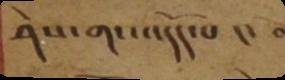ཤེས་གང་འདོད་པ །། བ
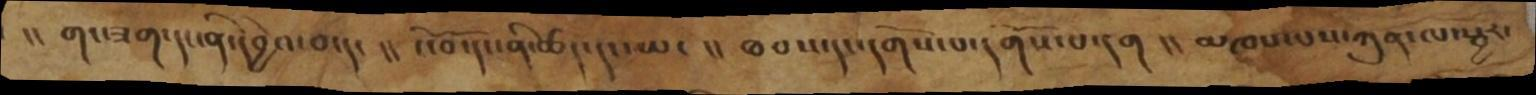།།  གང་ཟག་དང་ནི་དབྱེའ་བ་དང །།  ངོ་བོ་དང་ནི་ཚད་དང་ཡང །། ཐབས་དང་དགོས་པ་དགོས་པ་དག །། མཁས་པས་ཀུན་ལ་སྦྱར་
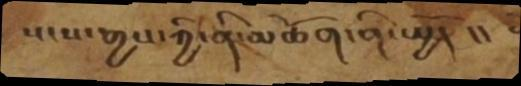སངས་རྒྱས་ཀྱི་ནི་མཆོག་གི་སྤྱོད  །།
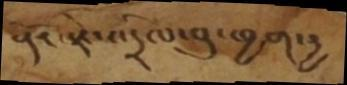རྡོ་རྗེས་དྲིལ་བུ་ཕྱག་དྱ
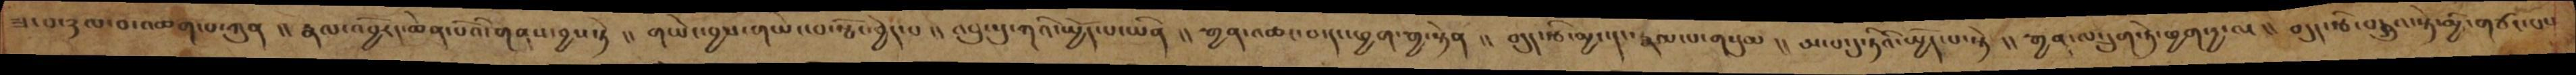ཟ་བ་ཉལ་བ་འཆག་པ་ཀུན།། རྣལ་འབྱོརད་ཆེན་པོའི་གནས་བྱས་སྟེ།། གཡེང་བྱས་གཡེང་བ་སྤོང་བྱེད་པ།། འབུ་སུ་ཀའི་སྤྱོད་པ་ཡིན།། རྒྱན་འཆང་བ་དང་ཕྱག་རྒྱ་སྟེན།། བདུད་རྩི་མྱང་དང་རྣམ་པ་གསུམ།། ཨ་པ་དུ་ཏིའི་སྤྱོད་པ་སྟེ།། རྒྱན་ལ་དྲུག་ཏེ་ཕྱག་དྱ་ལ།། བདུད་རྩི་བསྒྲུབ་སྟེ་མྱི་གཙང་པས
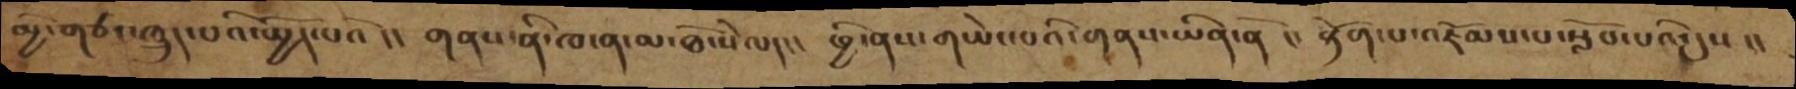མྱི་གཙང་ཁྲུད་པའི་སྤྱོད་པའོ །། གནས་ནི་ཁ་ན་མ་ཐོ་སེལད།།  ཕྱི་ནས་གཡེང་པའི་གནས་ཡིན་ནོ །།རྟོག་པ་འཇོམས་པ་སློབ་པའི་དུས །།
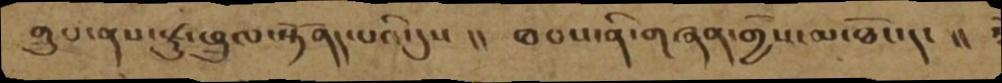གྲུབ་ནས་རྫུ་ཕྲུལ་སྟོནད་པའི་དུས །།  ཐབས་ནི་གཞན་གྱིས་མ་ཐོང་དང  །།
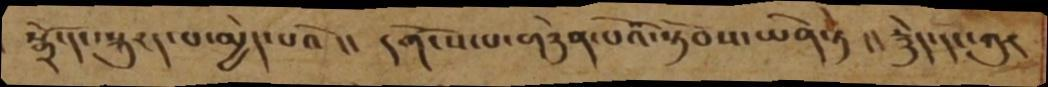སྒྲོ་དང་སྐུརད་པ་མྱེད་པའོ །། དགོངས་པ་གཉེན་པའི་སྟོབས་ཡིན་ཏེ །། རྙེད་དང་ཀུར
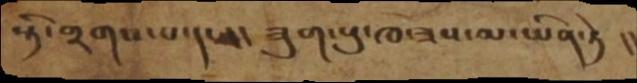སྟི་གྲགས་པ་དང །། ཟུག་རྔུ་ཁ་ཟས་མ་ཡིན་ཏེ །།
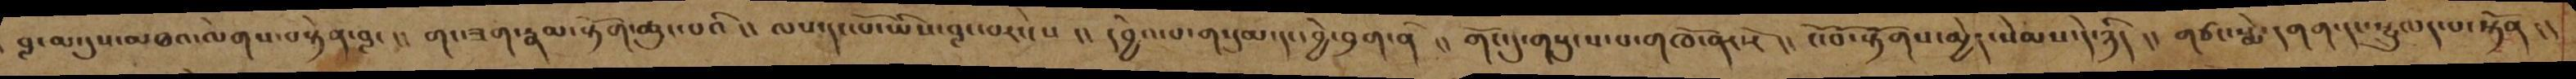བླ་མ་དུས་མཐའ་ལེགས་བསྟེན་བླང་ །། གང་ཟག་རྣམ་རྟོག་ཆུང་པའི །། ལས་དང་པོ་ཡིས་བླང་བར་ངེས་ །། དབྱེའ་པ་གསུམ་དང་དབྱེ་བྲག་ནི་ །། གོང་དུ་གསུངས་པ་གཁོ་ནར་རོ །། ངོ་བོ་རྟོགས་མྱེད་སེམས་དེ་ཉིད །། གཙང་སྨེ་དགག་དང་སྤྲུལད་པ་སྟོན །།
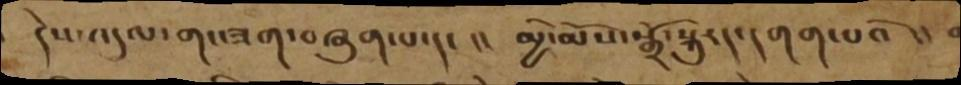དེས་འདུལ་གང་ཟག་བཞུག་པ་དང །།  མྱི་མོས་སྒྲོ་སྐུརད་དགག་པའོ །།
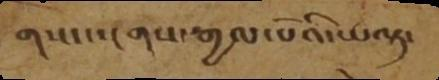གསང་སྔགས་རྒྱལ་པོའི་ཡལྟ་
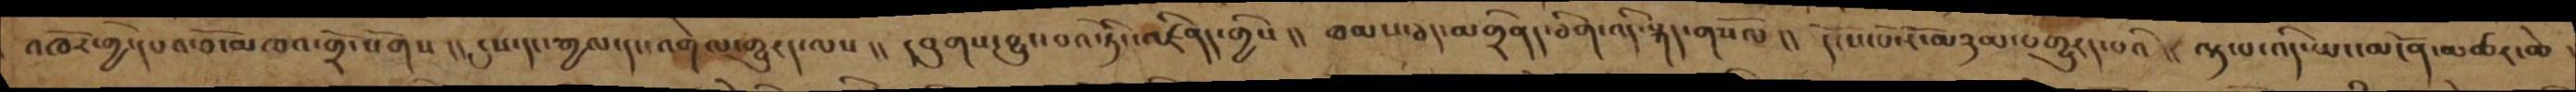འཁོར་གྱི་དཔའ་བོ་མཁའ་འགྲོ་སོགས །། དུས་དང་རྒྱལ་དང་འགེལ་གྱུརད་ལས །། དབུགས་བྱུང་བའི་ཏིང་འཛིནད་གྱིས །། ཐམས་ཅད་མགྲིནད་ཅིག་འདི་སྐད་གསོལ །། དངོས་པོ་རོ་མཉམ་བགྱུརད་པའི །། ལྟ་བ་འདི་ཡང་མངོན་མཚར་ཆེ །
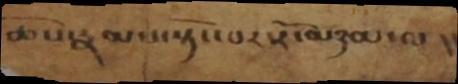ཆོས་རྣམས་སྟོང་པར་རོ་མཉམ་ལ །།
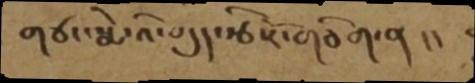གཙང་སྨེ་འི་བདུད་རྩི་རོ་གཅིག་ན །།
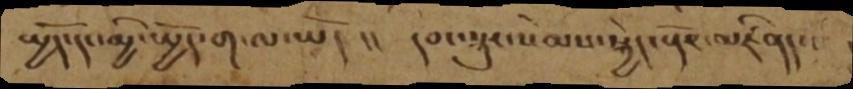སྤྱོདདང་མྱི་སྤྱོད་ག་ལ་ཡོད །།  དབང་སྐུར་སེམས་སྐྱེད་ནོར་འཛིནད།།
